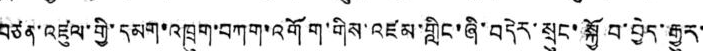བཙན་འཛུལ་གྱི་དམག་འཁྲུག་བཀག་འགོག་གིས་འཛམ་གླིང་ཞི་བདེར་སྲུང་སྐྱོབ་བྱེད་རྒྱུར་
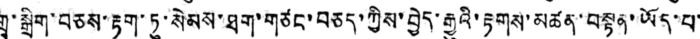གྲྭ་སྒྲིག་བཅས་རྟག་ཏུ་སེམས་ཐག་གཙང་བཅད་ཀྱིས་བྱེད་རྒྱུའི་རྟགས་མཚན་བསྟན་ཡོད་པ་
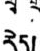རེད།
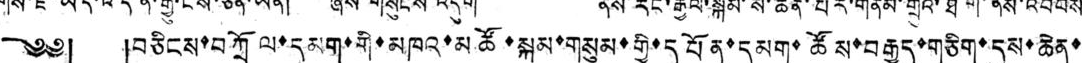༄༅། །བཅིངས་བཀྲོལ་དམག་གི་མཁའ་མཚོ་སྐམ་གསུམ་གྱི་དཔོན་དམག་ཚོས་བརྒྱད་གཅིག་དུས་ཆེན་
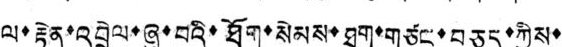ལ་རྟེན་འབྲེལ་ཞུ་བའི་ཐོག་སེམས་ཐག་གཙང་བཅད་ཀྱིས་
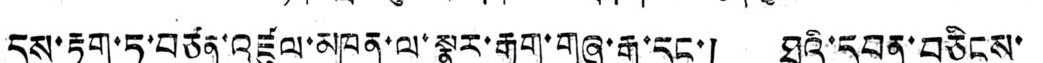དུས་རྟག་ཏུ་བཙན་འཛུལ་མཁན་ལ་སྣར་རྒྱུག་གཞུ་རྒྱུ་དང་། ཐའི་དབན་བཅིངས་
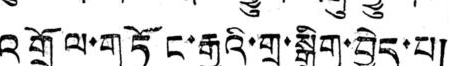འགྲོལ་གཏོང་རྒྱུའི་གྲ་སྒྲིག་བྱེད་པ།
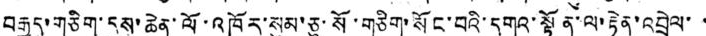བརྒྱད་གཅིག་དུས་ཆེན་ལོ་འཁོར་སུམ་ཅུ་སོ་གཅིག་སོང་བའི་དགའ་སྟོན་ལ་རྟེན་འབྲེལ་་
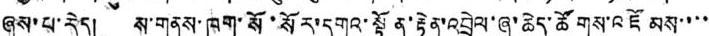ཞུས་པ་རེད། ས་གནས་ཁག་སོ་སོར་དགའ་སྟོན་རྟེན་འབྲེལ་ཞུ་ཆེད་ཚོགས་འཛོམས་་་་
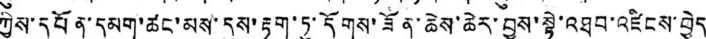ཀྱིས་དཔོན་དམག་ཚང་མས་དུས་རྟག་ཏུ་དོགས་ཟོན་ཆེས་ཆེར་བྱས་སྟེ་འཐབ་འཛིངས་བྱེད
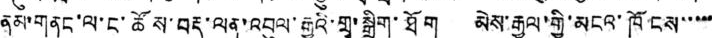ནམ་གནང་ལ་ང་ཚོས་བརྡ་ལན་འབུལ་རྒྱུའི་གྲྭ་སྒྲིག་ཐོག མེས་རྒྱལ་གྱི་མངའ་ཁོངས་་་་་
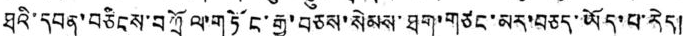ཐའི་དབན་བཅིངས་བཀྲོལ་གཏོང་རྒྱུ་བཅས་སེམས་ཐག་གཙང་མར་བཅད་ཡོད་པ་རེད།
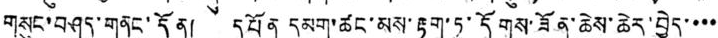གསུང་བཤད་གནང་དོན། དཔོན དམག་ཚང་མས་རྟག་ཏུ་དོགས་ཟོན་ཆེས་ཆེར་བྱེད་་་་
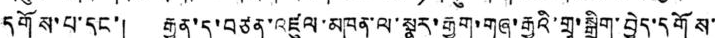དགོས་པ་དང་། རྒྱུན་དུ་བཙན་འཛུལ་མཁན་ལ་སྣར་རྒྱུག་གཞུ་རྒྱུའི་གྲྭ་སྒྲིག་བྱེད་དགོས་
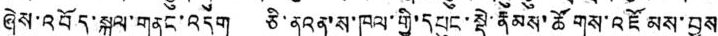ཞེས་འབོད་སྐུལ་གནང་འདུག ཅི་ནའན་ས་ཁུལ་གྱི་དཔུང་སྡེ་རྣམས་ཚོགས་འཛོམས་བྱས
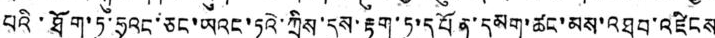པའི་ཐོག་ཏུ་ཧྲའང་ཅང་ཡའང་ཏའེ་ཀྲིས་དུས་རྟག་ཏུ་དཔོན་དམག་ཚང་མས་འཐབ་འཛིངས
